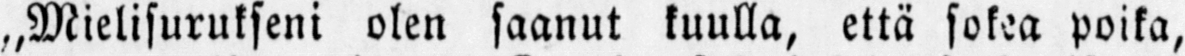„Mielisurukseni olen saanut kuulla, että sokea poika,
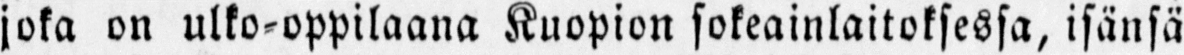joka on ulko-oppilaana Kuopion sokeainlaitoksessa, isänsä
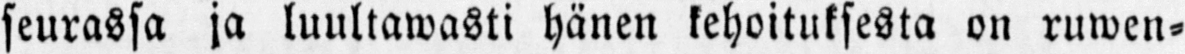seurassa ja luultawasti hänen kehoituksesta on ruwen-
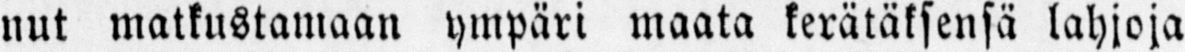nut matkustamaan ympäri maata kerätäksensä lahjoja
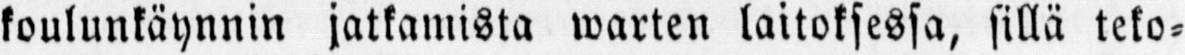koulunkäynnin jatkamista warten laitoksessa, sillä teko-
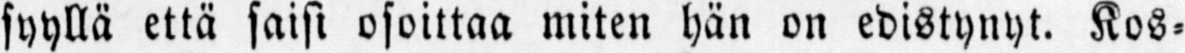syyllä että saisi osoittaa miten hän on edistynyt. Kos-
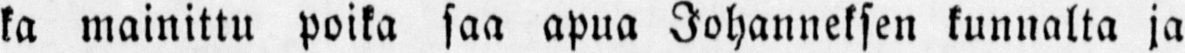ka mainittu poika saa apua Johanneksen kunnalta ja
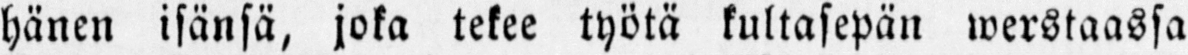hänen isänsä, joka tekee työtä kultasepän werstaassa
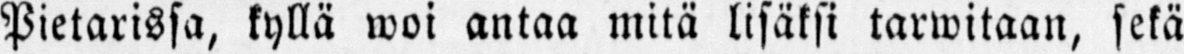Pietarissa, kyllä woi antaa mitä lisäksi tarwitaan, sekä
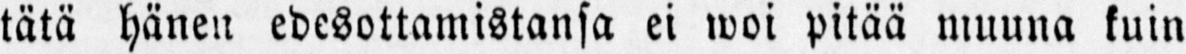tätä hänen edwsottamistansa ei woi pitää muuna kuin
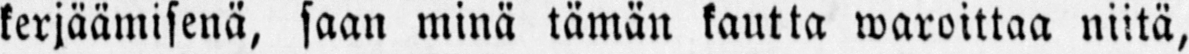kerjäämisenä, saan minä tämän kautta waroittaa niitä,
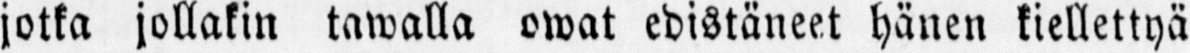jotka jollakin tawalla owat edistäneet hänen kiellettyä
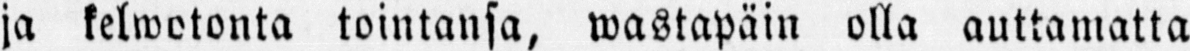ja kelwotonta tointansa, wastapäin olla auttamatta
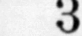3 +11½ +16 +10
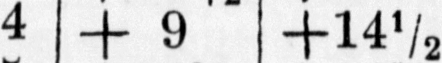4 +9 +i4½ +10½
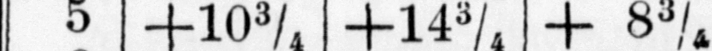5 +10¾ +14¾ +8¾.
